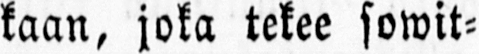kaan, joka tekee sowit-
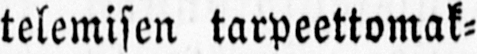telemisen tarpeettomak-
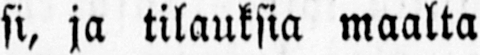si, ja tilauksia maalta
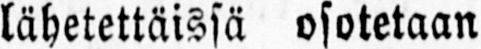lähetettäissä osotetaan
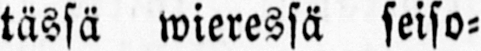tässä wieressä seiso-
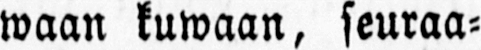waan kuwaan, seuraa-
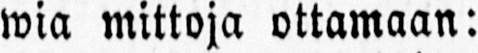wia mittoja ottamaan:
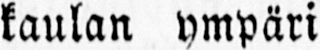kaulan ympäri AA:n
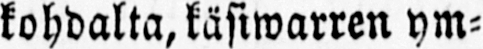kohdalta, käsiwarren ym-
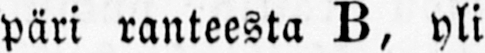päri ranteesta B, yli
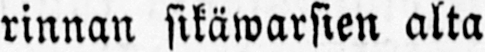rinnan sikäwarsien alta
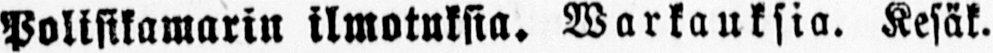Polisikamarin ilmotuksia. Warkauksia. Kesäk.
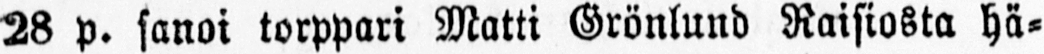28 p. sanoi torppari Matti Grönlund Raisiosta hä-
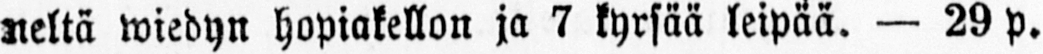neltä wiedyn hopiakellon ja 7 kyrsää leipää. — 29 p.
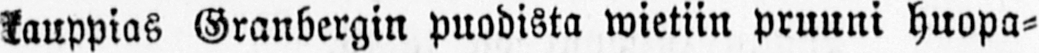kauppias Granbergin puodista wietiin pruuni huopa-
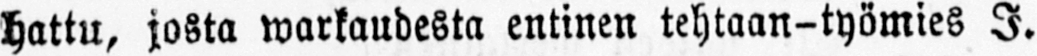hattu, josta warkaudesta entinen tehtaan-työmies I.
